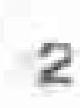2
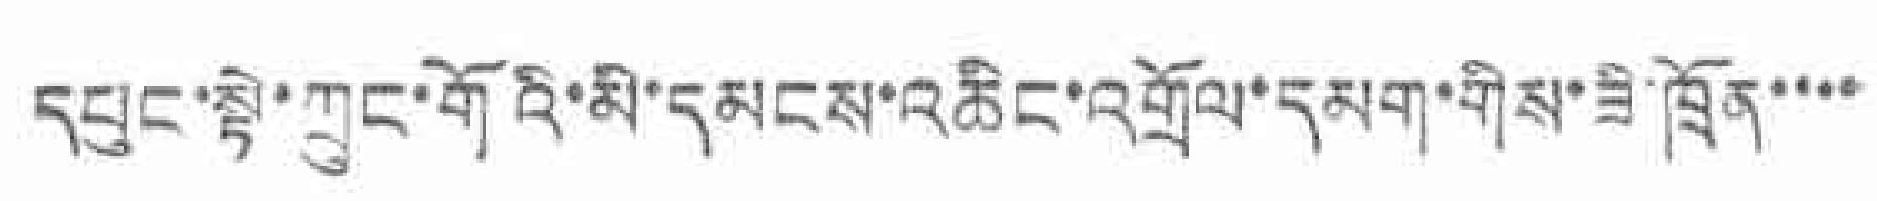དཔུང་སྟེ་ཀྲུང་གོའི་མི་དམངས་འཆིང་འགྲོལ་དམག་གིས་ཟི་ཁྲོན་་་་་
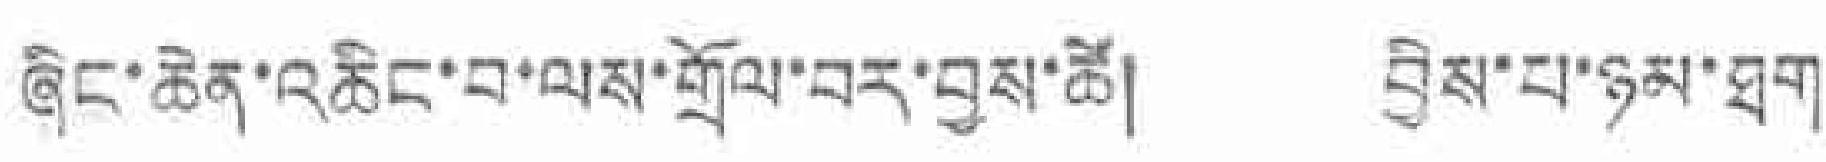ཞིང་ཆེན་འཆིང་བ་ལས་གྲོལ་བར་བྱས་ཚེ། བྱིས་པ་ཉམ་ཐག་
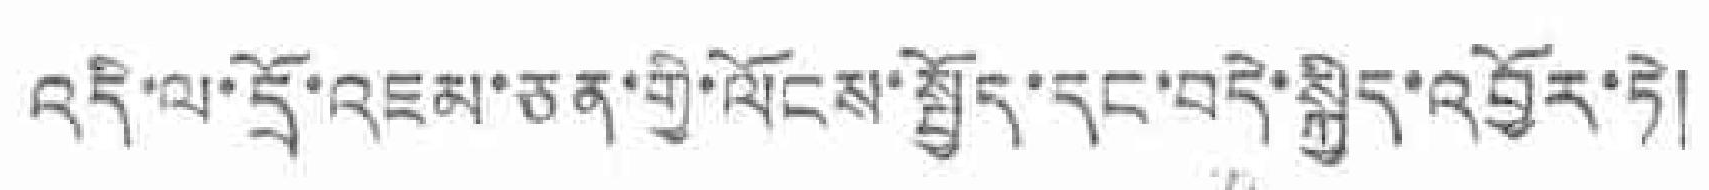འདི་ལ་དྲོ་འཇམ་ཅན་གྱི་ལོངས་སྤྱོད་དང་བདེ་སྐྱིད་འབྱོར་ཏེ།
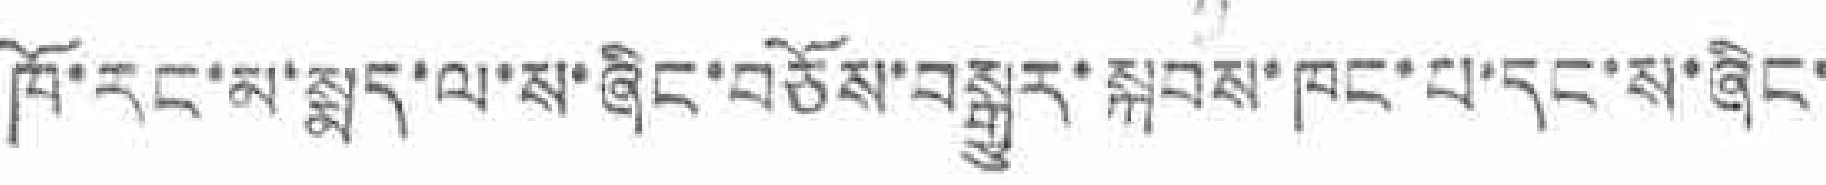ཁོ་རང་མ་སྨད་ལ་ས་ཞིང་བཅོས་བསྒྱུར་སྐབས་ཁང་པ་དང་ས་ཞིང་
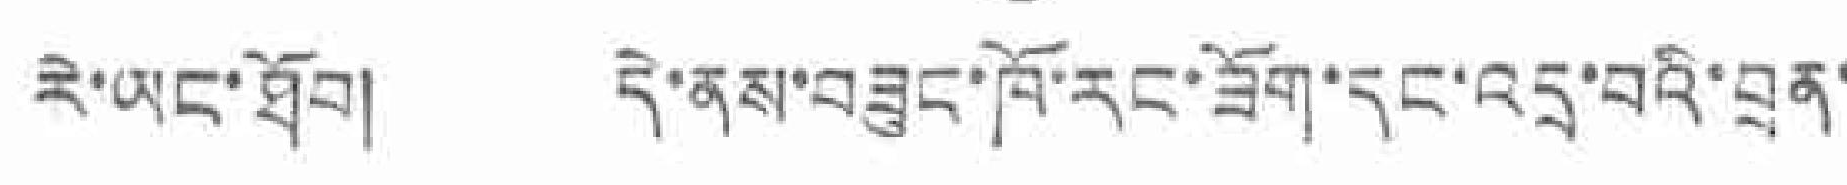རེ་ཡང་ཐོབ། དེ་ནས་བཟུང་ཁོ་རང་ཟོག་དང་འདྲ་བའི་བྲན་
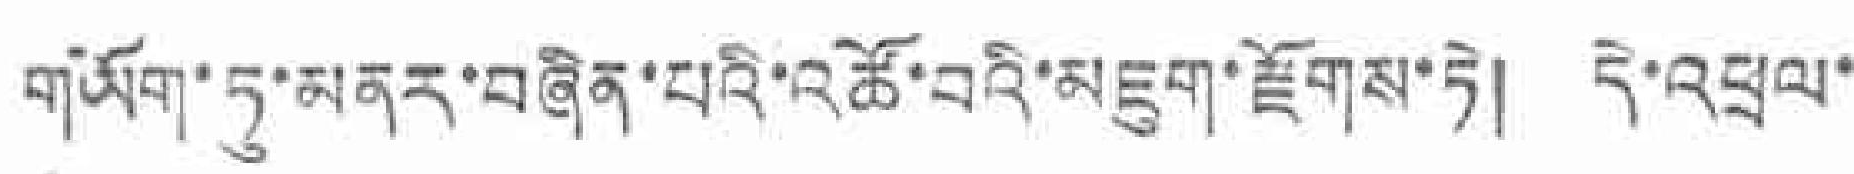གཡོག་ཏུ་མནར་བཞིན་པའི་འཚོ་བའི་མཇུག་རྫོགས་ཏེ། དེ་འཕྲུལ་
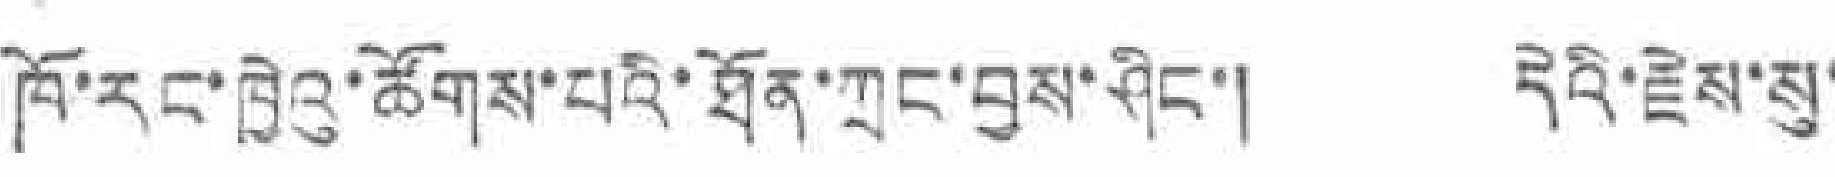ཁོ་རང་ཁྱེའུ་ཚོགས་པའི་ཐོན་ཀྲང་བྱས་ཤིང་། དེའི་རྗེས་སུ་
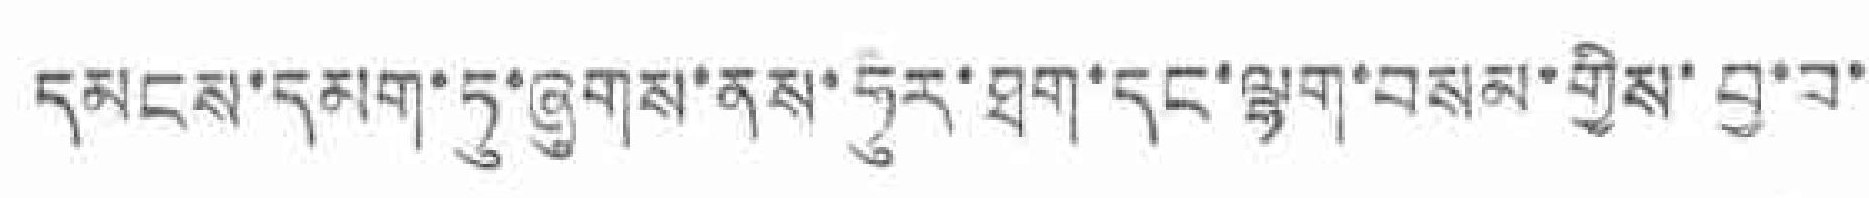དམངས་དམག་ཏུ་ཞུགས་ནས་ཧུར་ཐག་དང་ལྷག་བསམ་གྱིས་བྱ་བ་
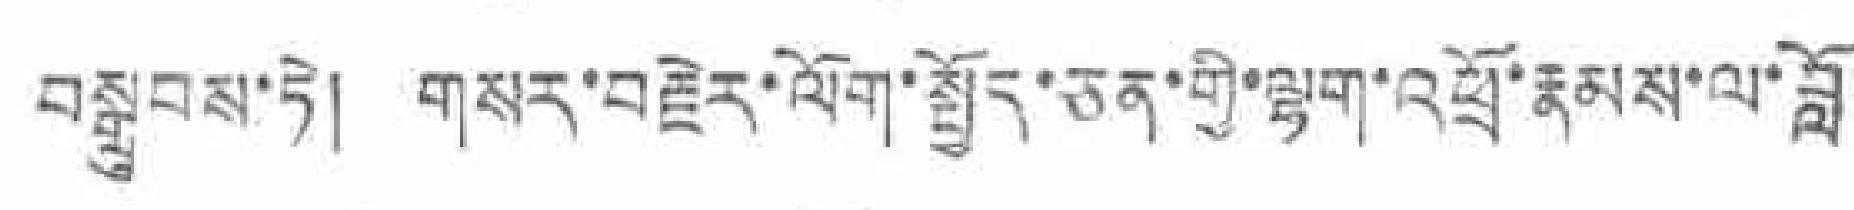བསྒྲུབས་ཏེ། གསར་བརྗེར་ལོག་སྤྱོད་ཅན་གྱི་ལྷག་འཕྲོ་རྣམས་ལ་བློ་
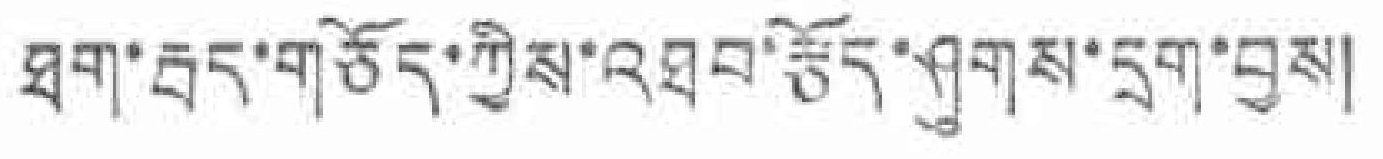ཐག་རྦད་གཅོད་ཀྱིས་འཐབ་རྩོད་ཤུགས་དྲག་བྱས།
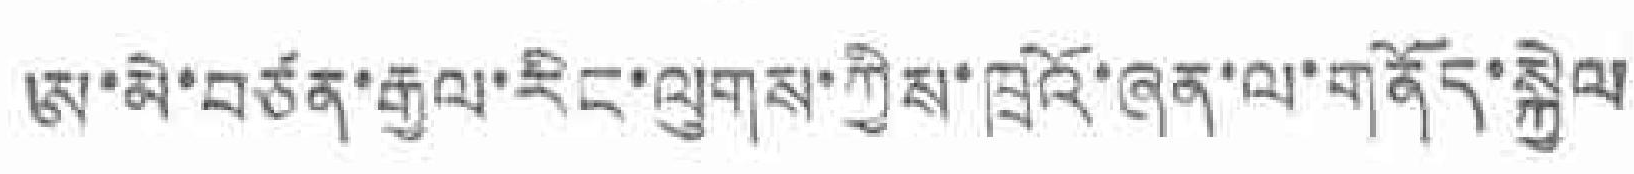ཨ་མེ་བཙན་རྒྱལ་རིང་ལུགས་ཀྱིས་ཁྲའོ་ཞན་ལ་གནོད་སྐྱེལ
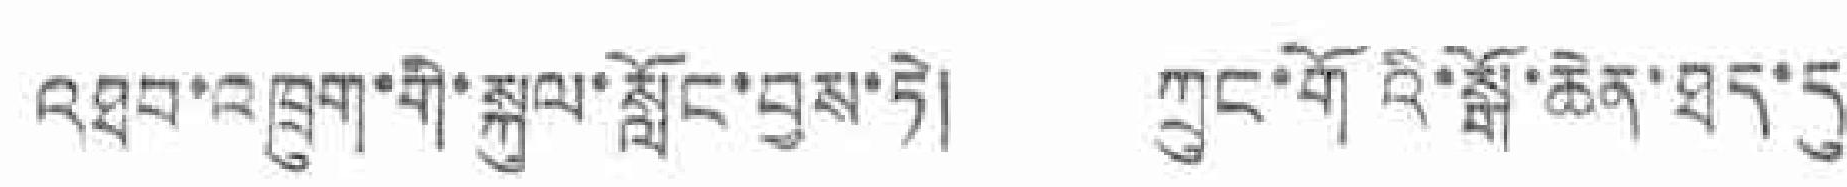འཐབ་འཁྲུག་གི་སྐུལ་སློང་བྱས་ཏེ། ཀྲུང་གོའི་སྒོ་ཆེན་ཐད་དུ་
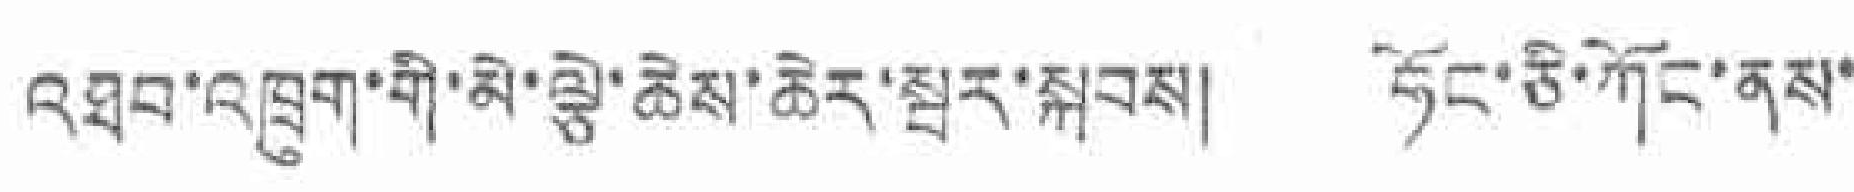འཐབ་འཁྲུག་གི་མེ་ལྕེ་ཆེས་ཆེར་སྦར་སྐབས། ཧོང་ཅི་ཀོང་ནས་
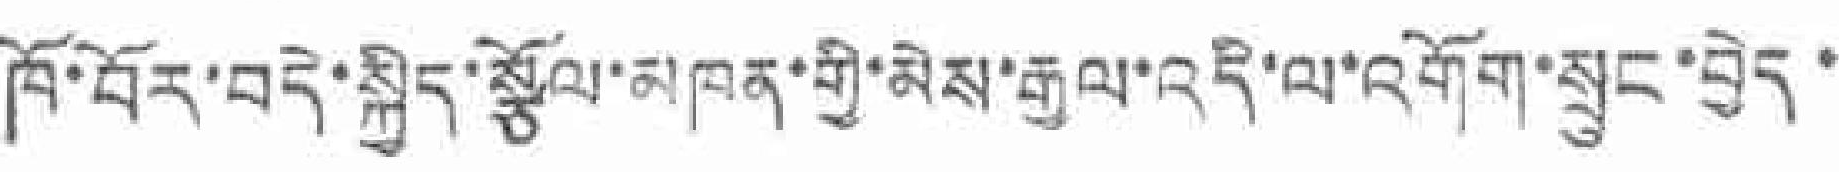ཁོ་བོར་བདེ་སྐྱིད་སྩོལ་མཁན་གྱི་མེས་རྒྱལ་འདི་ལ་འགོག་སྲུང་བྱེད་
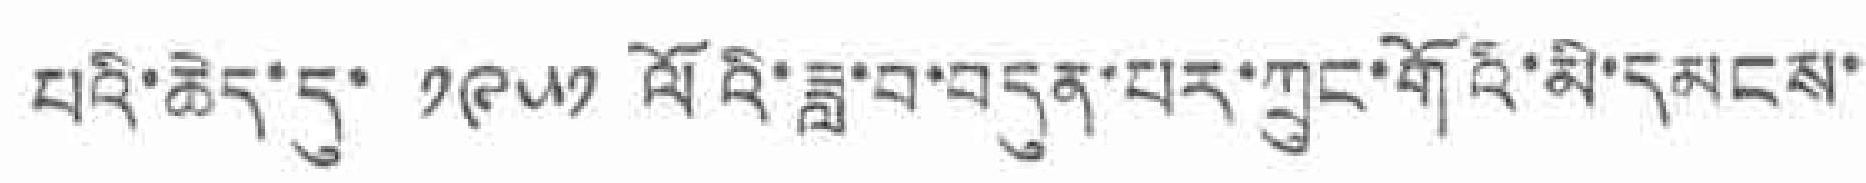པའི་ཆེད་དུ་ ༡༩༥༡ ལོའི་ཟླ་བ་བདུན་པར་ཀྲུང་གོའི་མི་དམངས་
